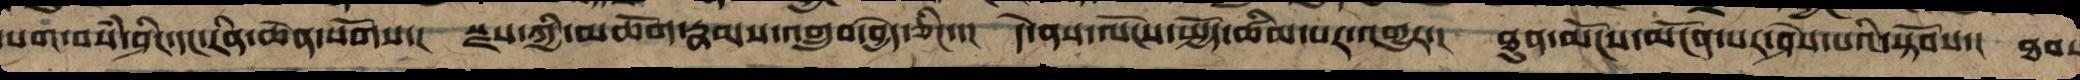དཔག་བསམ་ཤིང་དང་རིན་ཆེན་སོགས་། སྫས་ཀྱི་མཆོག་རྣམས་འགྲུབ་བྱེད་ཅིང་་། དེ་ནས་ལོངས་སྤྱོད་ཚིམས་པར་འགྱུར་། ཐུན་མོང་མངོན་པར་ཤེས་པའི་སྟོབས་། ཐབས
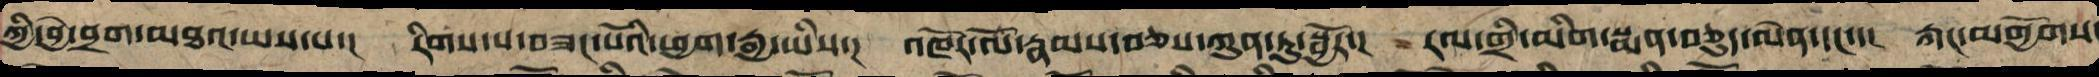ཀྱི་བྱེ་བྲག་མཐའ་ཡས་པ་། རིག་པ་བཟང་པོའི་ཕྱག་རྒྱ་ཡིས་། འཁོར་ལོ་རྣམས་བཅས་ཀུན་ཏུ་སྦྱོར་། རལ་གྲི་མིག་སྨན་བཅུད་ལེན་དང་་། རྐང་མགྱོགས
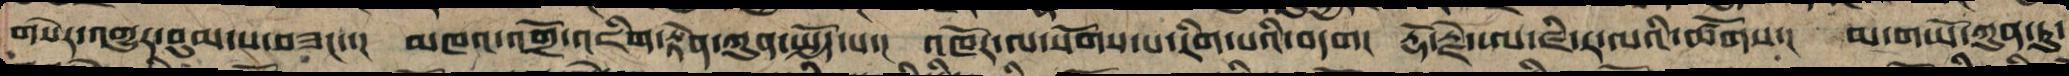གསེར་འགྱུར་བུམ་པ་བཟང་་། མཁའ་འགྲོ་འཇིག་རྟེན་ཀུན་སྤྱོད་པ་། འཁོར་ལ་སོགས་པ་རིག་པའི་བདག་ རྡོ་རྗེ་ཨ་ཛི་ར་ལའི་ཚོགས་། མ་གཡོ་ཀུན་ཏུ་
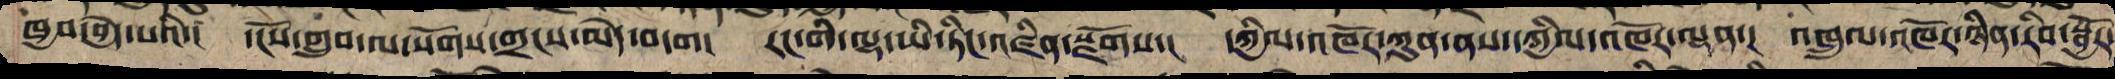ཁྱབ་བྱེད་པའི་། དངོས་གྲུབ་ལ་སོགས་གྲངས་མེད་བདག། རང་གི་ལྷ་ཡི་ཏིང་འཛིན་སྫོགས་། དཀྱིལ་འཁོར་ཀུན་ནས་དཀྱིལ་འཁོར་ལྡན་། འཁྲུལ་འཁོར་ཉིན་རིབ་སྦྱོར་
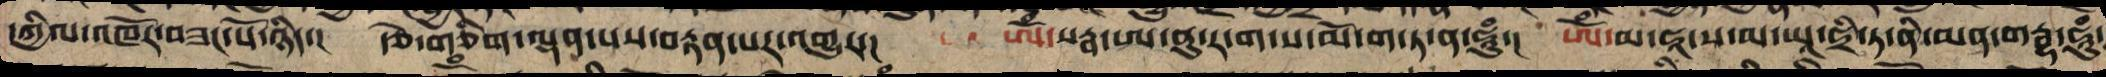དཀྱིལ་འཁོར་བཟང་པོ་ཉིད་། རྩེ་གཅིག་ལྡན་པས་བརྟན་པར་འགྱུར་། ཨོཾ་སརྦ་ཨ་ནུ་ར་ག་ས་མོ་ག་ཏ་ན་ཧཱུྃ་། ཨོཾ་མ་ཧ་ས་མ་ཡཱ་ཧྲི་ཏ་ནི་མན་གརྦྷ་ཧཱུྃ།་
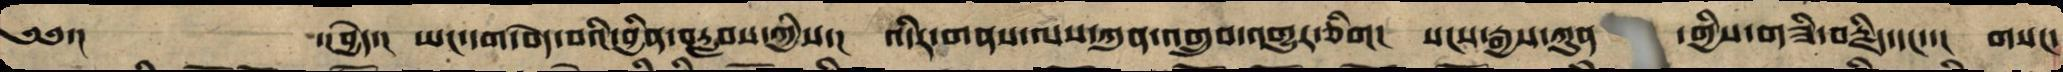༄༅་། ་།བྱེད་། ཡང་དག་བདེ་བའི་བྱིན་བརླབས་ཀྱིས་། འདིར་གནས་ལས་ཀུན་འགྲུབ་གྱུར་ཅིག། སངས་རྒྱས་ཀུན་གྱི་གཟི་བརྗིད་དང་་། གསང་
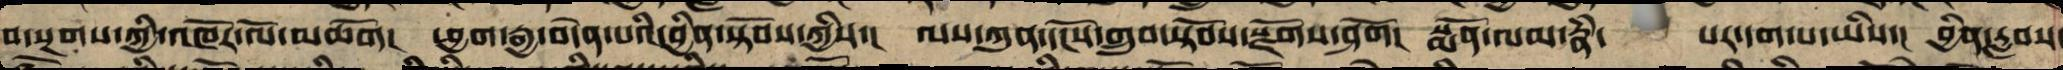བ་སྔགས་ཀྱི་འཁོར་ལོ་མཆོག། ཕྱག་རྒྱ་བདེན་པའི་བྱིན་སྟོབས་ཀྱིས་། ལས་ཀུན་དངོས་གྲུབ་སྟོབས་སྫོགས་ཤོག། སྨོན་ལམ་རྣཾ་པར་དག་པ་ཡི་། བྱིན་རླབས་
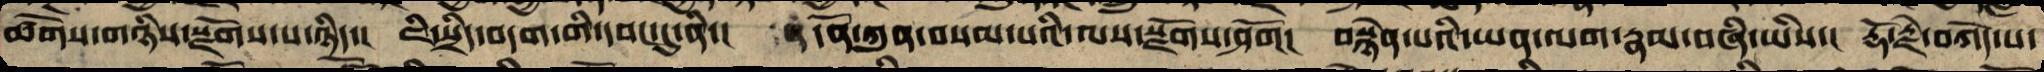ཚོགས་གཉིས་སྫོགས་པ་ཉིད་། ཇི་སྲིད་བདག་གི་དབང་དུ་ནི་། དོན་ཀུན་བསམ་པའི་ལས་སྫོགས་ཤོག། བསྙེན་པའི་ཡན་ལག་རྣམ་བཞི་ཡིས་། རྡོ་རྗེ་བཀོད་པ་
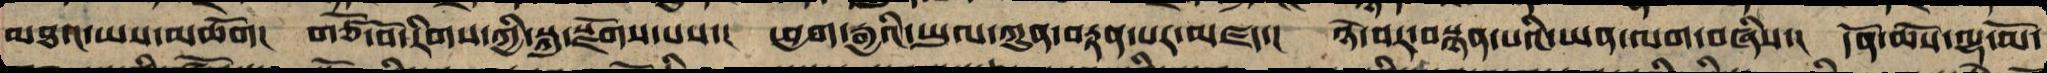མཐའ་ཡས་མཆོག། གཙོ་བོ་རིགས་ཀྱི་སྐུར་སྫོགས་པས་། ཕྱག་རྒྱའི་ཡུལ་ཀུན་བརྟན་པར་མཛད་། ཉེ་བར་བསྙན་པའི་ཡན་ལག་བཞིས་། དོན་ཆོས་་ལྷ་མོ་
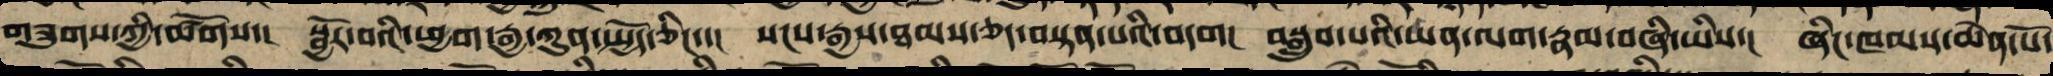གཟུངས་ཀྱི་ཚོགས་། སྦྱོར་བའི་ཕྱག་རྒྱ་ཀུན་སྤྱོད་ཅིང་་། སངས་རྒྱས་ཐམས་ཅད་བསྟན་པའི་བདག། བསྒྲུབ་པའི་ཡན་ལག་རྣམ་བཞི་ཡིས་། ཞིང་ཁམས་ཆེན་པོ་
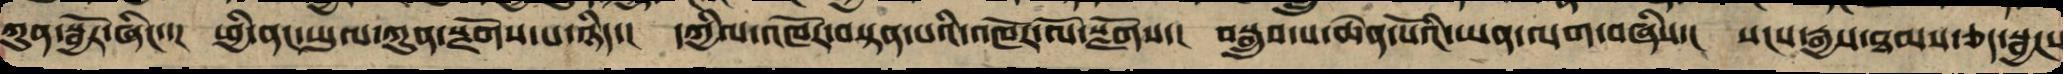ཀུན་སྦྱངས་ཞིང་་། ཕྱི་ནང་ཡུལ་ཀུན་སྫོགས་པ་ཉིད་། དཀྱིལ་འཁོར་བརྟེན་པའི་འཁོར་ལོ་སྫོགས་། བསྒྲུབ་པ་ཆེན་པོའི་ཡན་ལག་བཞིས་། སངས་རྒྱས་ཐམས་ཅད་སྦྱངས
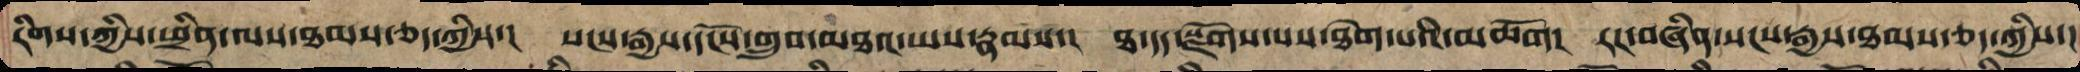རིགས་ཀྱི་ཕྲིན་ལས་ཐམས་ཅད་ཀྱིས་། སངས་རྒྱས་དངོས་གྲུབ་མཐའ་ཡས་རྣམས་། ཐ་དད་སྫོགས་པས་ཐེག་པའི་མཆོག། རང་བཞིན་སངས་རྒྱས་ཐམས་ཅད་ཀྱིས་།
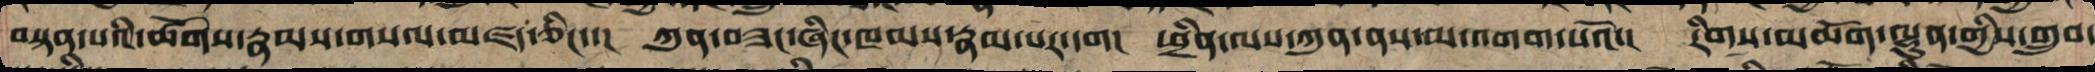བསྟན་པའི་ཚོགས་རྣམས་གསལ་མཛད་ཅིང་་། ཀུན་ཀྱང་ཞིང་ཁམས་རྣམ་པར་དག། ཕྲིན་ལས་ཀུན་ནས་མ་འགག་པའོ་། རིགས་མཆོག་ལྷུན་གྱིས་གྲུབ་
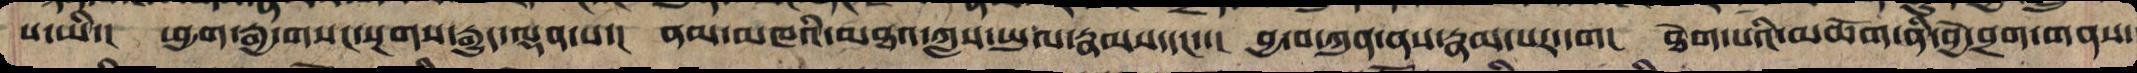པ་ཡི་། ཕྱག་རྒྱ་གསང་སྔགས་རྒྱུད་ལྡན་པ་། ནམ་མཁའི་མཐའ་ཀླས་ཡུལ་རྣམས་དང་་། བྱ་བ་ཀུན་ནས་རྣམ་པར་དག། ཐེག་པའི་མཆོག་ནི་བྱེ་བྲག་གནས་
